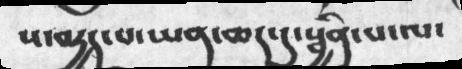ས་བདྱད་པ་ཡན་ཆད་དུ་སྦྱིན་པ་ལ་
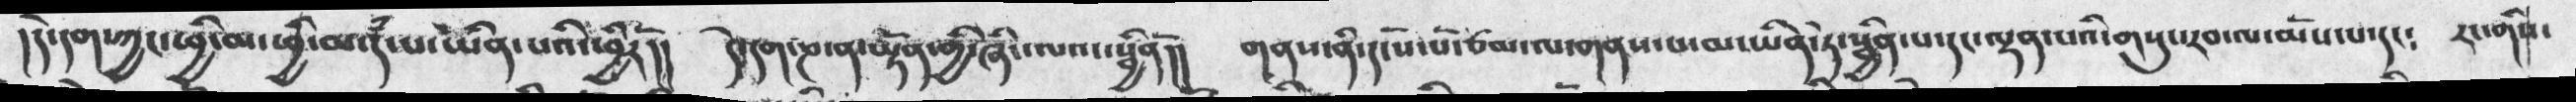།དེ་དག་ཀྱང་ཕྱི་མ་དཾ་པ་ཡིན་པའི་ཕྱིརོ།།  དེ་དག་ཎ་ན་ཡྟོན་གྱི་ཞིང་ལའང་སྦྱིནོ།།  གནས་ནི་དངོས་པོ་ཙམ་ལ་གནས་པ་མ་ཡིན་ཏེ་སྦྱིན་པ་དང་ལྡན་པའི་གསུང་རབ་ལ་མོས་པ་དང༴  རང་གིས་
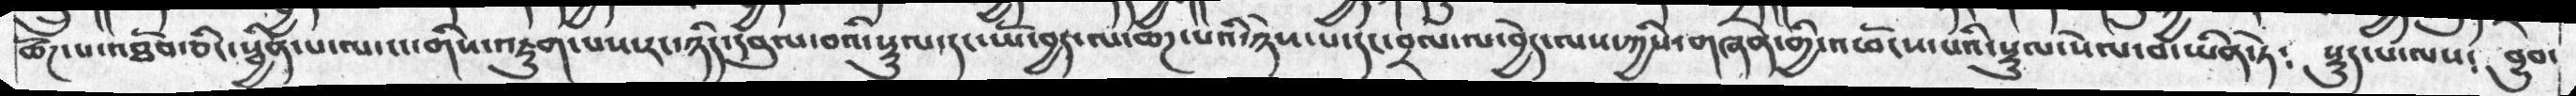ཚོཌ་པ་འཐོབ་ཅིང་སྦྱིན་པ་ལ་ངང་གིས་འཇུག་པས་རང་ཉིད་དབུལ་བའི་སྡུལ་དང་ཡོ་བྱད་ལ་ཆཌ་པའི་ཉེས་པ་དང་བྲལ་ལ་བྱེད་ལས་ཀྱིས་གཞན་གྱི་འཕོངས་པའི་སྡུལ་སེལ་བ་ཡིན་ཏེ༴  སྡུད་པ་ལས༴  བྱུབ་
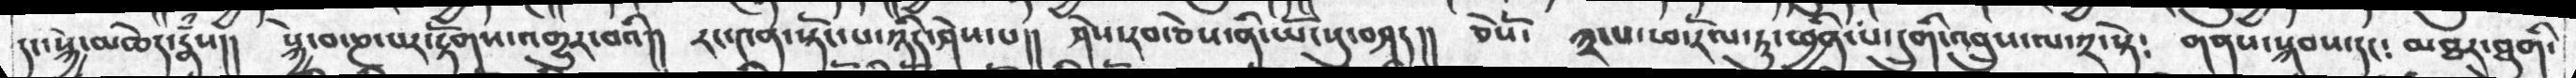དང་སྐྱེ་མཆེད་རྣཾས།།  སྐྱེ་བ་ཎ་པར་རྟོགས་འགྱུར་བའི།།  རང་༤ན་སྟོང་པ་ཉིད་ཤེས་པ།།  ཤེས་རབ་ཅེས་ནི་ཡོངསུ་བཤད།།  ཅེསོ་  ༣་པ་ཕ་རོལ་ཏུ་ཕྱིན་པ་དྲུགི་འབྲུས་ལ་༢་སྟེ༴  གནས་སྐབས་དང༴  མཐར་ཐུགི་
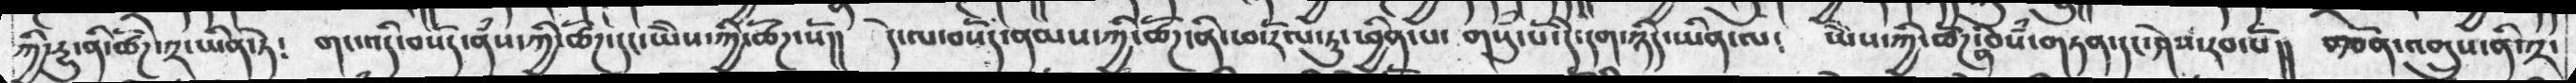ཀྱི་དྱུ་ནི་ཚོཌ་༢་ཡིན་ཏེ༴  གང་འདི་བསོད་ནཾས་ཀྱི་ཚོཌ་དང་ཡེེས་ཀྱི་ཚོཌ་སོ།།  དེ་ལ་བསོད་ནམས་ཀྱི་ཚོཌ་ནི་ཕ་རོལ་ཏུ་ཕྱིན་པ་ གསུཾ་པོ་དི་དག་ཉིད་ཡིན་ལ༴  ཡེེས་ཀྱི་ཚོཌ་ན་བསཾ་གཏན་དང་ཤེས་རབ་པོ།།   བརྩོན་འགྲུས་ནི་༢་
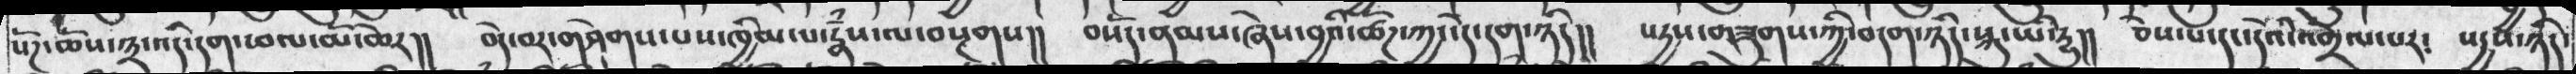སོཌ་ཆོས་༣་འདི་དག་ཕལ་མོ་ཆེར།།  བདེ་བར་གཤེགས་པས་ཁྱིམ་པ་རྣཾས་ལ་བསྔགས།།  བསོད་ནམས་ཞེས་བྱའི་ཚོཌ་ཀྱང་དེ་དག་ཉིད།།  སདྱས་གཟུགས་ཀྱི་བདག་ཉིད་སྐུ་ཡི་རྱུ།།  ཅེས་པ་དང་དེའི་འགྲེལ་པར༴  སདྱས་ཉིད་
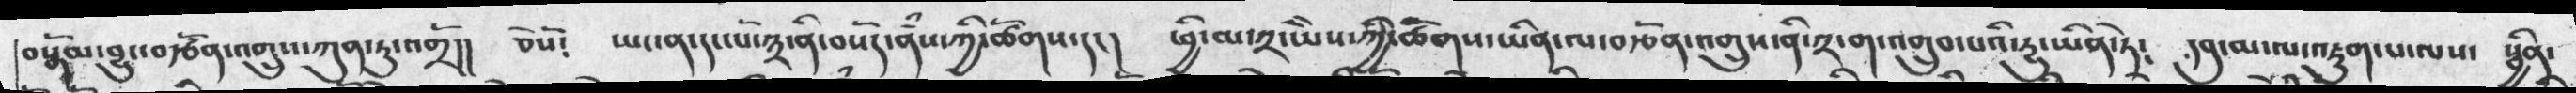བསྒོམ་བྱུང་བརྩོན་འགྲུས་ཀུན་ཏུ་འགྲོ།། ཅེསོ༴ ཡང་ན་དང་པོ་༣་ནི་བསོད་ནཾས་ཀྱི་ཚོགས་དང།། ཕྱི་མ་༢་ཡཻས་ཀྱི་ཚོགས་ཡིན་ལ་བརྩོན་འགྲུས་ནི་༢་ག་འགྲུབ་པའི་རྱུ་ཡིན་ཏེ༴ དབུ་མ་ལ་འཇུག་པ་ལས་ སྦྱིན་
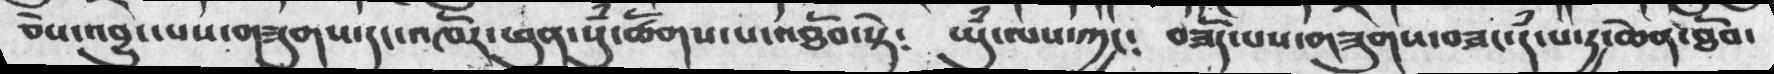ཅེས་འབྱུང་པས་གཟུགས་དང་འཁོར་ཕུན་སུཾ་ཚོགས་པ་འཐོབ་སྟེ༴ ཡུཾ་ལས་ཀྱང༴ བཟོད་པས་གཟུགས་བཟང་དཾ་པ་དྱ་ཆེན་ཐོབ་
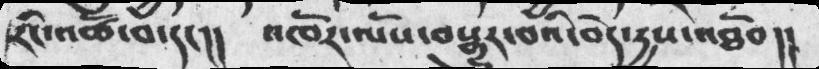རིང་འཚོ་བ་དང།། འཁོར་ལོས་བསྒྱུར་བའི་བདེ་དྱས་འཐོབ།།
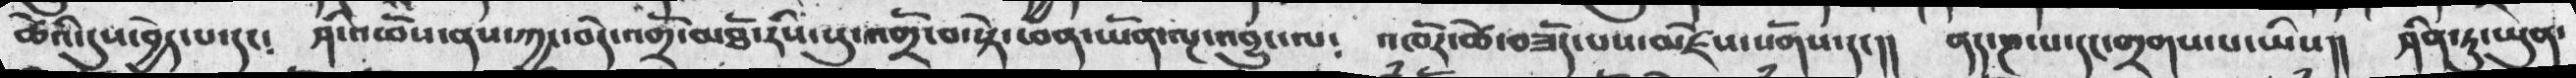ཚེའི་དུས་བྱེད་པ་དང༴ ཤི་འཕོས་ནས་ཀྱང་བདེ་འགྲོ་མཐོ་རིས་སུ་འགྲོ་བ་སྟེ་ཕན་ཡོན་ལྔ་འབྱུང་ལ༴ འཁོར་ཚེ་བཟོད་པས་མཛེས་སོགས་དང།། ནད་ཎ་པ་དང་གྲགས་པ་ཡིས།། ཤིན་ཏུ་ཡུན་
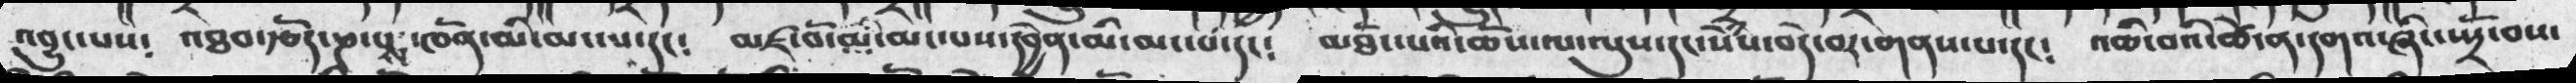འབྱུང་པས༴  འཐབ་རྩོད་ཎ་པས་ཁོན་མི་མང་པ་དང༴   མཛ་བོ་མེད་པས་དབྱེན་མི་མང་པ་དང༴   མཐོང་པའི་ཆོས་ལ་ལུས་དང་སེཾས་བདེ་བར་གནས་པ་དང༴  འཆི་བའི་ཚེ་ན་དགའ་ཞིང་སྤྲོ་བས་
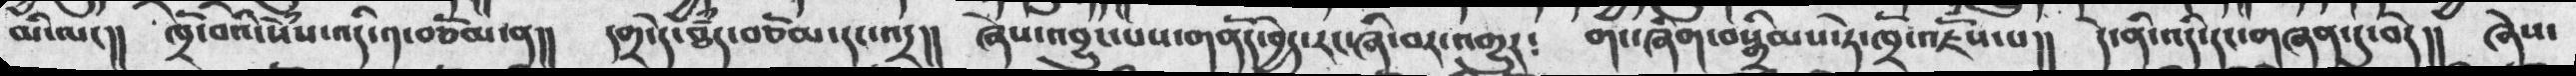མི་ལང།། ཁྲོ་བའི་སེཾས་འདི་༡་བཅོམ་ན།། དགྲ་དེ་ཐཾད་བཅོམ་དང་འདྲ།། ཞེས་འབྱུང་པས་གནོད་བྱེད་རང་ཞི་བར་འགྱུར༴ གང་ཞིག་བསྒྲིམས་ཏེ་ཁྲོ་འཇོས་པ།། དེ་ནི་འདི་དང་གཞན་དུ་བདེ།། ཞེས་
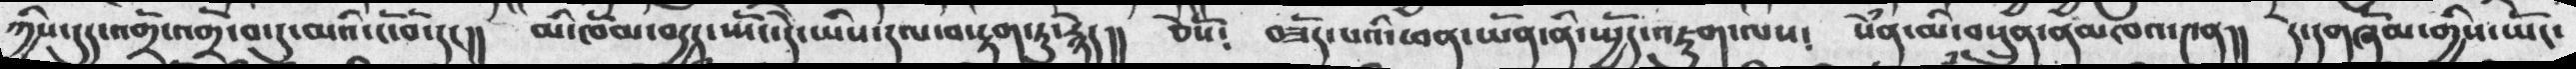ཀྱིས་དུད་འགྲོ་འགྲོ་བ་དུ་མའི་ངོ་བོ་དང།།  མི་ཁོམ་བདྱད་ཡོང་དེ་ཡིས་དལ་བ་རྟག་ཏུ་རྙེད།།  ཅེསོ༴  བཟོད་པའི་ཕན་ཡོན་ནི་སྤྱོད་འཇུག་ལས༴ སེཾན་མི་བསྲུན་ནམཁའ་༤ན།། དེ་དགཞོམ་གྱིས་ཡོང་
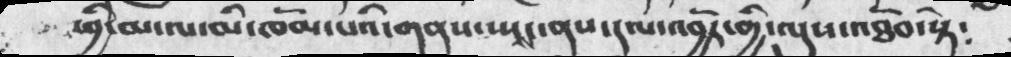ཕྱི་མ་ལ་མི་ཁོམ་པའི་གནས་སྤངས་ནས་དལ་འབྱོར་གྱི་ལུས་འཐོབ་སྟེ༴
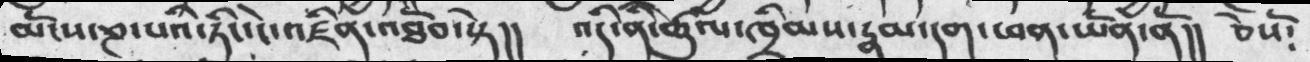མོངས་ཎ་པའི་ཏིང་ངེ་འཛིན་འཐོབ་སྟེ།།  འདི་ནི་ཚུལ་ཁྲིམས་རྣམ་དག་ཕན་ཡོན་ནོ།།  ཅེསོ༴
